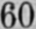60
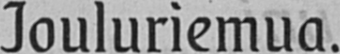Jouluriemua.
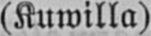(Kuwilla).
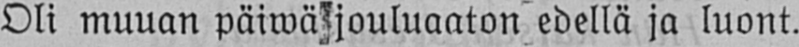Oli muuan päiwä jouluaaton edellä ja luont.
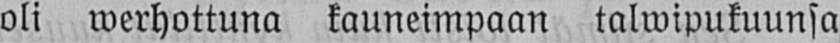oli werhottuna kauneimpaan talwipukuunsa
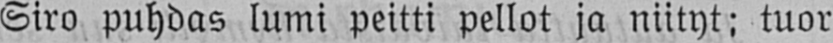Siro puhdas lumi peitti pellot ja niityt: tuor
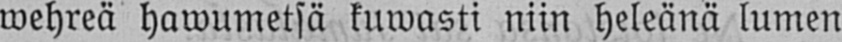wehreä hawumetsä kuwasti niin heleänä lumen
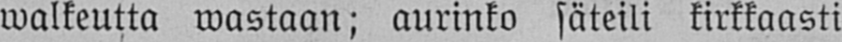walkeutta wastaan; aurinko säteili kirkkaasti
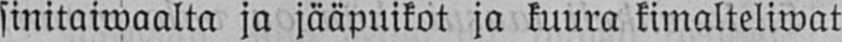sinitaiwaalta ja jääpuikot ja kuura kimalteliwat
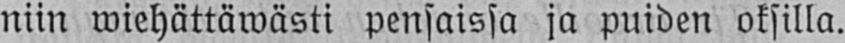niin wiehättäwästi pensaissa ja puiden oksilla.
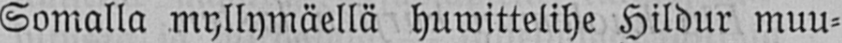Somalla myllymäellä huwittelihe Hildur muu-
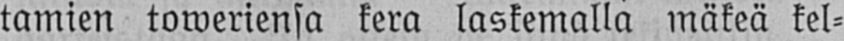tamien toweriensa kera laskemalla mäkeä kel-
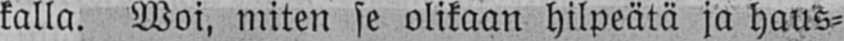kalla. Woi, miten se olikaan hilpeätä ja haus-
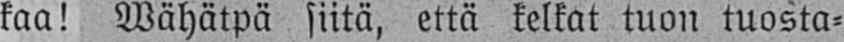kaa! Wähätpä siitä, että kelkat tuon tuosta-
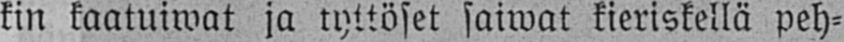kin kaatuiwat ja tyttöset saiwat kieriskellä peh-
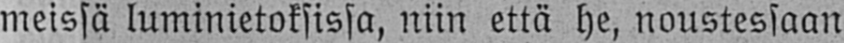meissä luminietoksissa, niin että he, noustessaan
